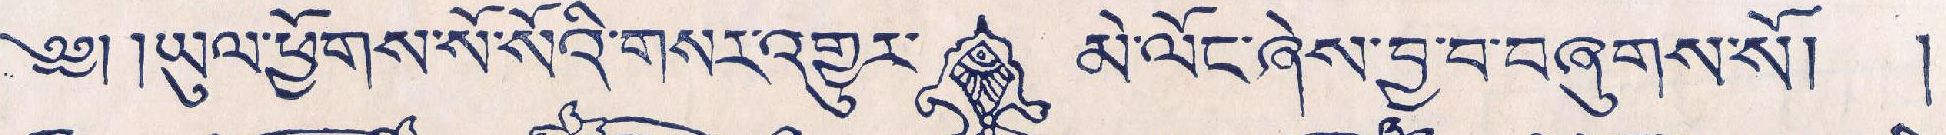༄༅། །ཡུལ་ཕྱོགས་སོ་སོའི་གསར་འགྱུར་ མེ་ལོང་ཞེས་བྱ་བ་བཞུགས་སོ། །
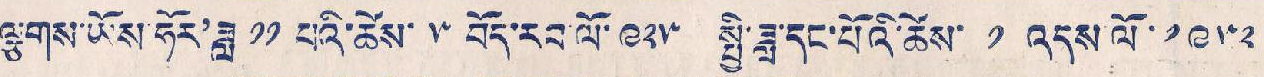ལྕགས་ཡོས ཧོར་ཟླ་ ༡༡ པའི་ཚེས་ ༥ ་བོད་རབ་ལོ་ ༩༢༥ སྤྱི་ཟླ་དང་པོའི་ཚེས་ ༡ འདས་ལོ་ ༡༩༥༢
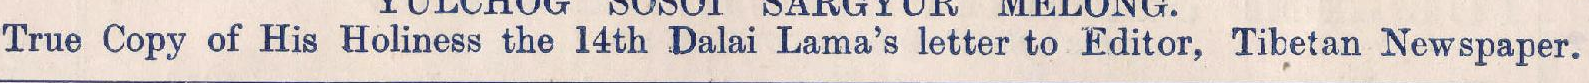True Copy of His Holiness the 14th Dalai Lama's letter to Editor, Tibetan Newspaper.
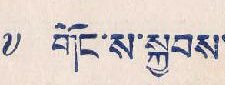༸ གོང་ས་སྐྱབས་
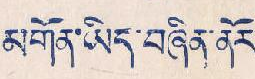མགོན་ཡིད་བཞིན་ནོར་
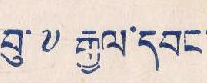བུ་ ༸ རྒྱལ་དབང་
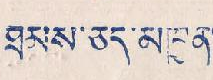ཐམས་ཅད་མཁྱན་
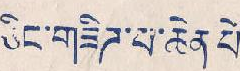ཅིང་གཟིཊ་པ་ཆེན་པོ་
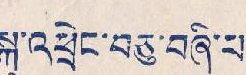སྐུ་འཕྲེང་བཅུ་བཞི་པ་
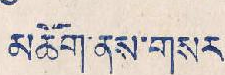མཆོག་ནས་གསར་
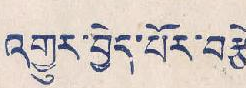འགྱུར་བྱེད་པོར་བརྩེ་
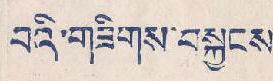པའི་གཟིགས་བསྐྱངས་
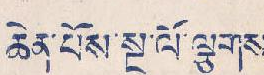ཆེན་པོས་སྔ་ལོ་ལྕགས་
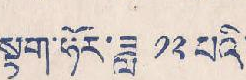སྟག་ཧོར་ཟླ་ ༡༢ པའི་
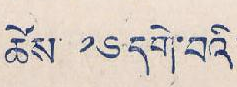ཚེས་ ༡༦ དགེ་བའི་
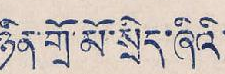ཉིན་གྲོ་མོ་སྲིད་ཞིའི་
